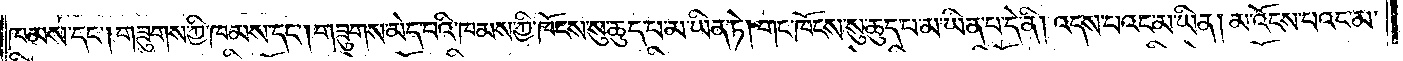ཁམས་དང༌། གཟུགས་ཀྱི་ཁམས་དང༌། གཟུགས་མེད་པའི་ཁམས་ཀྱི་ཁོངས་སུ་ཆུད་པ་མ་ཡིན་ཏེ། གང་ཁོངས་སུ་ཆུད་པ་མ་ཡིན་པ་དེ་ནི། འདས་པའང་མ་ཡིན། མ་འོངས་པའང་མ་
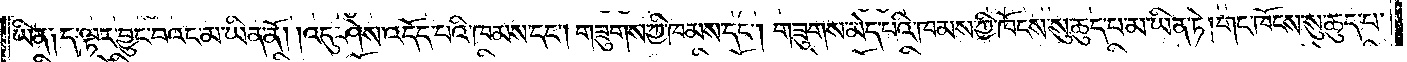ཡིན༑ ད་ལྟར་བྱུང་བའང་མ་ཡིན་ནོ། །འདུ་ཤེས་འདོད་པའི་ཁམས་དང༌། གཟུགས་ཀྱི་ཁམས་དང༌། གཟུགས་མེད་པའི་ཁམས་ཀྱི་ཁོངས་སུ་ཆུད་པ་མ་ཡིན་ཏེ། གང་ཁོངས་སུ་ཆུད་པ་
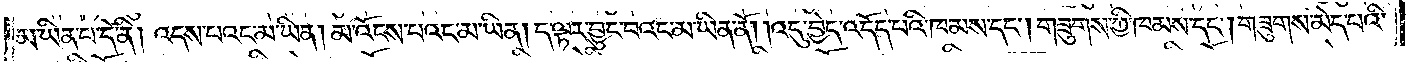མ་ཡིན་པ་དེ་ནི། འདས་པའང་མ་ཡིན། མ་འོངས་པའང་མ་ཡིན། ད་ལྟར་བྱུང་བའང་མ་ཡིན་ནོ། །འདུ་བྱེད་འདོད་པའི་ཁམས་དང༌། གཟུགས་ཀྱི་ཁམས་དང༌། གཟུགས་མེད་པའི་
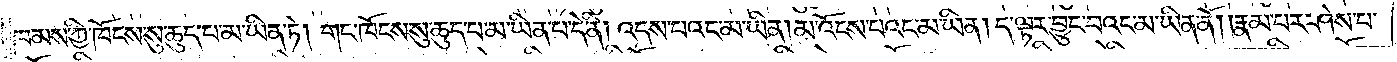ཁམས་ཀྱི་ཁོངས་སུ་ཆུད་པ་མ་ཡིན་ཏེ། གང་ཁོངས་སུ་ཆུད་པ་མ་ཡིན་པ་དེ་ནི། འདས་པའང་མ་ཡིན། མ་འོངས་པའང་མ་ཡིན། ད་ལྟར་བྱུང་བའང་མ་ཡིན་ནོ། །རྣམ་པར་ཤེས་པ་
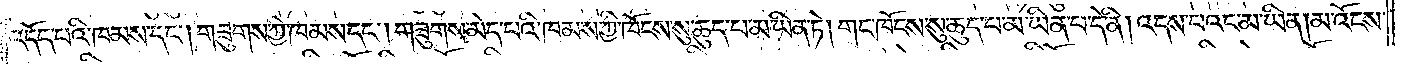འདོད་པའི་ཁམས་དང༌། གཟུགས་ཀྱི་ཁམས་དང༌། གཟུགས་མེད་པའི་ཁམས་ཀྱི་ཁོངས་སུ་ཆུད་པ་མ་ཡིན་ཏེ། གང་ཁོངས་སུ་ཆུད་པ་མ་ཡིན་པ་དེ་ནི། འདས་པའང་མ་ཡིན། མ་འོངས་
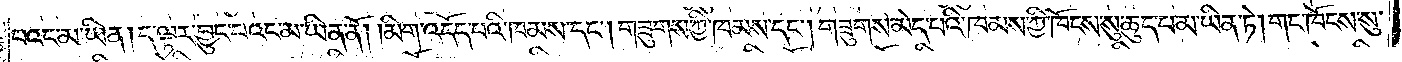པའང་མ་ཡིན། ད་ལྟར་བྱུང་བའང་མ་ཡིན་ནོ། །མིག་འདོད་པའི་ཁམས་དང༌། གཟུགས་ཀྱི་ཁམས་དང༌། གཟུགས་མེད་པའི་ཁམས་ཀྱི་ཁོངས་སུ་ཆུད་པ་མ་ཡིན་ཏེ། གང་ཁོངས་སུ་
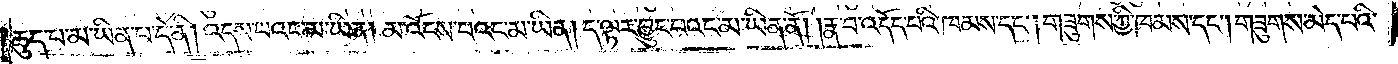ཆུད་པ་མ་ཡིན་པ་དེ་ནི། འདས་པའང་མ་ཡིན། མ་འོངས་པའང་མ་ཡིན། ད་ལྟར་བྱུང་བའང་མ་ཡིན་ནོ། །རྣ་བ་འདོད་པའི་ཁམས་དང༌། གཟུགས་ཀྱི་ཁམས་དང༌། གཟུགས་མེད་པའི་
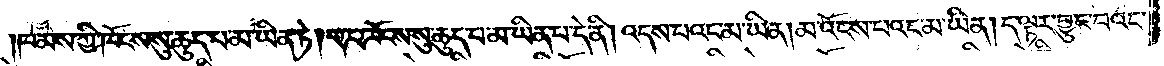ཁམས་ཀྱི་ཁོངས་སུ་ཆུད་པ་མ་ཡིན་ཏེ། གང་ཁོངས་སུ་ཆུད་པ་མ་ཡིན་པ་དེ་ནི། འདས་པའང་མ་ཡིན། མ་འོངས་པའང་མ་ཡིན། ད་ལྟར་བྱུང་བའང་
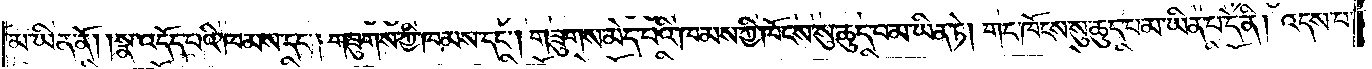མ་ཡིན་ནོ། །སྣ་འདོད་པའི་ཁམས་དང༌། གཟུགས་ཀྱི་ཁམས་དང༌། གཟུགས་མེད་པའི་ཁམས་ཀྱི་ཁོངས་སུ་ཆུད་པ་མ་ཡིན་ཏེ། གང་ཁོངས་སུ་ཆུད་པ་མ་ཡིན་པ་དེ་ནི། འདས་པ་
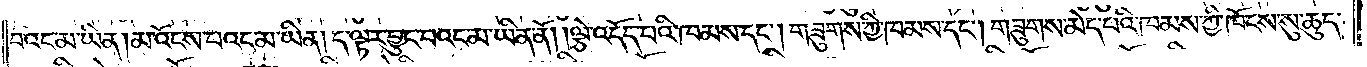བའང་མ་ཡིན། མ་འོངས་པའང་མ་ཡིན། ད་ལྟར་བྱུང་བའང་མ་ཡིན་ནོ། །ལྕེ་འདོད་པའི་ཁམས་དང༌། གཟུགས་ཀྱི་ཁམས་དང༌། གཟུགས་མེད་པའི་ཁམས་ཀྱི་ཁོངས་སུ་ཆུད་
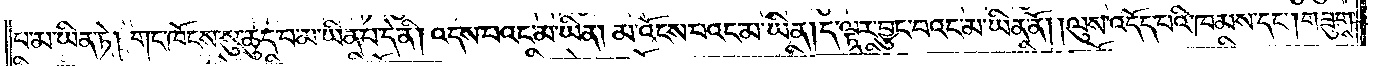པ་མ་ཡིན་ཏེ། གང་ཁོངས་སུ་ཆུད་པ་མ་ཡིན་པ་དེ་ནི། འདས་པའང་མ་ཡིན། མ་འོངས་པའང་མ་ཡིན། ད་ལྟར་བྱུང་བའང་མ་ཡིན་ནོ། །ལུས་འདོད་པའི་ཁམས་དང༌། གཟུགས་
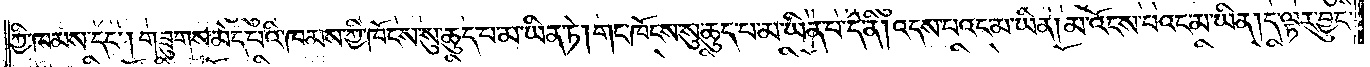ཀྱི་ཁམས་དང༌། གཟུགས་མེད་པའི་ཁམས་ཀྱི་ཁོངས་སུ་ཆུད་པ་མ་ཡིན་ཏེ། གང་ཁོངས་སུ་ཆུད་པ་མ་ཡིན་པ་དེ་ནི། འདས་པའང་མ་ཡིན། མ་འོངས་པའང་མ་ཡིན། ད་ལྟར་བྱུང་
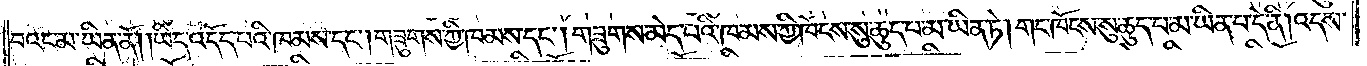བའང་མ་ཡིན་ནོ། །ཡིད་འདོད་པའི་ཁམས་དང༌། གཟུགས་ཀྱི་ཁམས་དང༌། གཟུགས་མེད་པའི་ཁམས་ཀྱི་ཁོངས་སུ་ཆུད་པ་མ་ཡིན་ཏེ། གང་ཁོངས་སུ་ཆུད་པ་མ་ཡིན་པ་དེ་ནི། འདས་
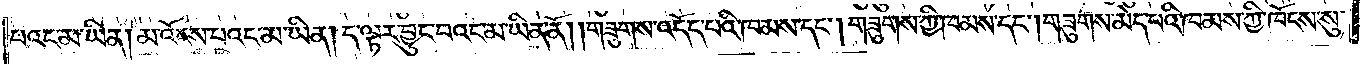པའང་མ་ཡིན། །མ་འོངས་པའང་མ་ཡིན། ད་ལྟར་བྱུང་བའང་མ་ཡིན་ནོ། །གཟུགས་འདོད་པའི་ཁམས་དང༌། གཟུགས་ཀྱི་ཁམས་དང༌། གཟུགས་མེད་པའི་ཁམས་ཀྱི་ཁོངས་སུ་
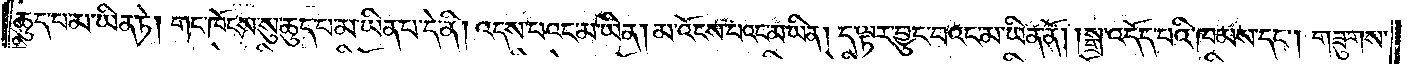ཆུད་པ་མ་ཡིན་ཏེ། གང་ཁོངས་སུ་ཆུད་པ་མ་ཡིན་པ་དེ་ནི། འདས་པའང་མ་ཡིན། མ་འོངས་པའང་མ་ཡིན། ད་ལྟར་བྱུང་བའང་མ་ཡིན་ནོ། །སྒྲ་འདོད་པའི་ཁམས་དང༌། གཟུགས་
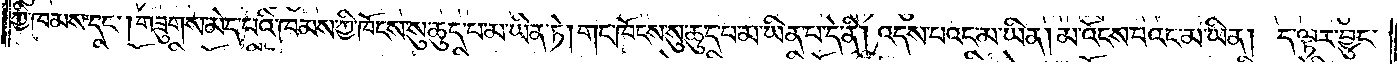ཀྱི་ཁམས་དང༌། གཟུགས་མེད་པའི་ཁམས་ཀྱི་ཁོངས་སུ་ཆུད་པ་མ་ཡིན་ཏེ། གང་ཁོངས་སུ་ཆུད་པ་མ་ཡིན་པ་དེ་ནི། འདས་པའང་མ་ཡིན། མ་འོངས་པའང་མ་ཡིན། ད་ལྟར་བྱུང་
